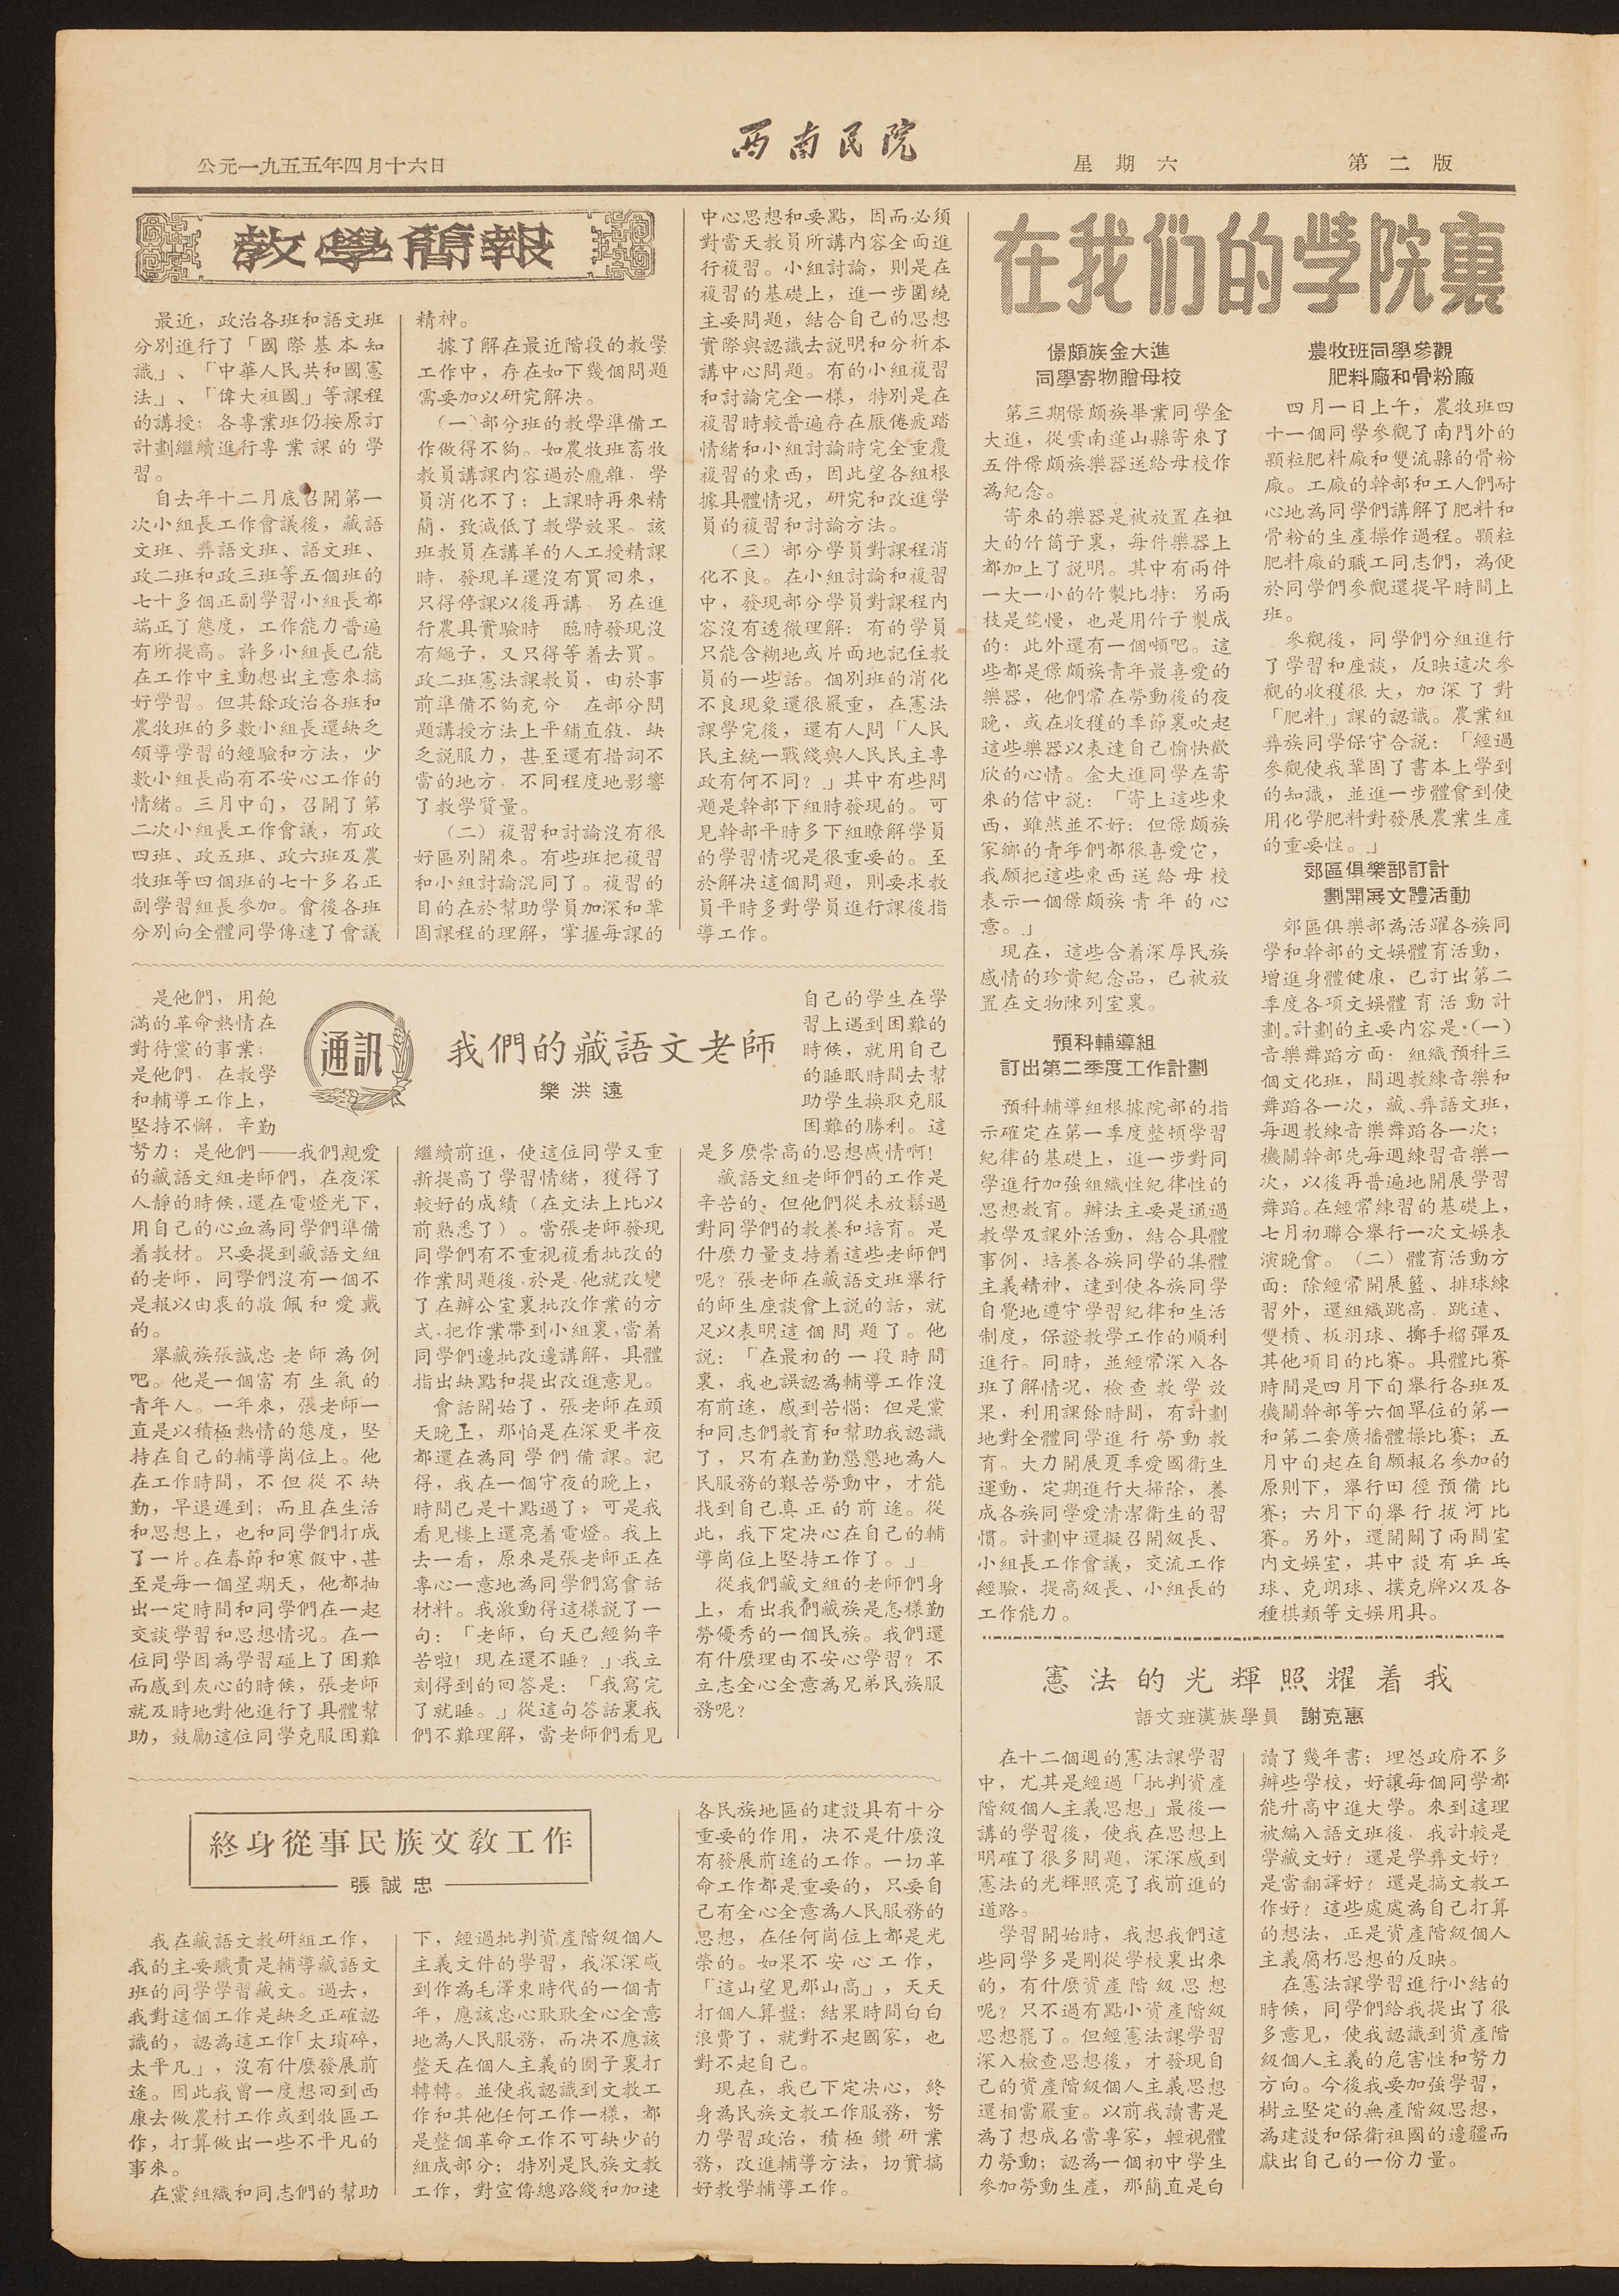公元一九五五年四月十六日 西南民院 星期六 第二版
教學簡報
最近，政治各班和語文班
分別進行了「國際基本知
識」、「中華人民共和國憲
法」、「偉大祖國」等課程
的講授：各專業班仍按原訂
計劃繼續進行專業課的學
習。
自去年十二月底召開第一
次小組長工作會議後，藏語
文班、彝語文班、語文班、
政二班和政三班等五個班的
七十多個正副學習小組長都
端正了態度，工作能力普遍
有所提高。許多小組長已能
在工作中主動想出主意來搞
好學習。但其餘政治各班和
農牧班的多數小組長還缺乏
領導學習的經驗和方法，少
數小組長尚有不安心工作的
情緒。三月中旬，召開了第
二次小組長工作會議，有政
四班、政五班、政六班及農
牧班等四個班的七十多名正
副學習組長參加。會後各班
分別向全體同學傳達了會議
精神。
據了解在最近階段的教學
工作中，存在如下幾個問題
需要加以研究解決。
（一）部分班的教學準備工作
做得不夠。如農牧班畜牧
教員講課內容過於龐雜，學
員消化不了；上課時再來精
簡，致減低了教學效果。該
班教員在講羊的人工授精課
時，發現羊還沒有買囘來，
只得停課以後再講，另在進
行農具實驗時，臨時發現沒
有繩子，又只得等着去買。
政二班憲法課教員，由於事
前準備不夠充分，在部分問
題講授方法上平鋪直敍，缺
乏說服力，甚至還有措詞不
當的地方，不同程度地影響
了教學質量。
（二）複習和討論沒有很
好區別開來。有些班把複習
和小組討論混同了。複習的
目的在於幫助學員加深和鞏
固課程的理解，掌握每課的
中心思想和要點，因而必須
對當天教員所講內容全面進
行複習。小組討論，則是在
複習的基礎上，進一步圍繞
主要問題，結合自己的思想
實際與認識去說明和分析本
講中心問題。有的小組複習
和討論完全一樣，特別是在
複習時較普遍存在厭倦疲踏
情緒和小組討論時完全重覆
複習的東西，因此望各組根
據具體情況，研究和改進學
員的複習和討論方法。
（三）部分學員對課程消
化不良。在小組討論和複習
中，發現部分學員對課程內
容沒有透徹理解；有的學員
只能含糊地或片面地記住教
員的一些話。個別班的消化
不良現象還很嚴重，在憲法
課學完後，還有人問「人民
民主統一戰綫與人民民主專
政有何不同？」其中有些問
題是幹部下組時發現的。可
見幹部平時多下組瞭解學員
的學習情況是很重要的。至
於解決這個問題，則要求教
員平時多對學員進行課後指
導工作。
通訊
我們的藏語文老師
樂 洪 遠
是他們，用飽
滿的革命熱情在
對待黨的事業；
是他們，在教學
和輔導工作上，
堅持不懈，辛勤
努力；是他們——我們親愛
的藏語文組老師們，在夜深
人精的時候，還在點燈光下，
用自己的心血為同學們準備
着教材。只要提到藏語文組
的老師，同學們沒有一個不
是報以由衷的敬佩和愛戴
的。
舉藏族張誠忠老師為例
吧。他是一個富有生氣的
青年人。一年來，張老師一
直是以積極熱情的態度，堅
持在自己的輔導崗位上。他
在工作時間，不但從不缺
勤，早退遲到；而且在生活
和思想上，也和同學們打成
了一片。在春節和寒假中，甚
至是每一個星期天，他都抽
出一定時間和同學們在一起
交談學習和思想情況。在一
位同學因為學習碰上了困難
而感到灰心的時候，張老師
就及時地對他進行了具體幫
助，鼓勵這位同學克服困難
繼續前進，使這位同學又重
新提高了學習情緒，獲得了
較好的成績（在文法上比以
前熟悉了）。當張老師發現
同學們有不重視複看批改的
作業問題後，於是，他就改變
了在辦公室裏批改作業的方
式，把作業帶到小組裏，當着
同學們邊批改邊講解，具體
指出缺點和提出改進意見。
會話開始了，張老師在頭
天晚上，那怕是在深更半夜
都還在為同學們備課。記
得，我在一個守夜的晚上，
時間已是十點過了；可是我
看見樓上還亮着電燈。我上
去一看，原來是張老師正在
專心一意地為同學們寫會話
材料。我激動得這樣說了一
句：「老師，白天已經夠辛
苦啦！現在還不睡？」我立
刻得到的回答是：「我寫完
了就睡。」從這句答話裏我
們不難理解，當老師們看見
自己的學生在學
習上遇到困難的
時候，就用自己
的睡眠時間去幫
助學生換取克服
困難的勝利。這
是多麼崇高的思想感情啊！
藏語文組老師們的工作是
辛苦的，但他們從未放鬆過
對同學們的教養和培育。是
什麼力量支持着這些老師們
呢？張老師在藏語文班舉行
的師生座談會上說的話，就
足以表明這個問題了。他
說：「在最初的一段時間
裏，我也誤認為輔導工作沒
有前途，感到苦惱；但是黨
和同志們教育和幫助我認識
了，只有在勤勤懇懇地為人
民服務的艱苦勞動中，才能
找到自己真正的前途。從
此，我下定決心在自己的輔
導崗位上堅持工作了。」
從我們藏文組的老師們身
上，看出我們藏族是怎樣勤
勞優秀的一個民族。我們還
有什麼理由不安心學習？不
立志全心全意為兄弟民族服
務呢？
終身從事民族文敎工作
張 誠 忠
我在藏語文教研組工作，
我的主要職責是輔導藏語文
班的同學學習藏文。過去，
我對這個工作是缺乏正確認
識的，認爲這工作「太瑣碎，
太平凡」，沒有什麼發展前
途。因此我曾一度想囘到西
康去做農村工作或到牧區工
作，打算做出一些不平凡的
事來。
在黨組織和同志們的幫助
下，經過批判資產階級個人
主義文件的學習，我深深感
到作為毛澤東時代的一個青
年，應該忠心耿耿全心全意
地為人民服務，而決不應該
整天在個人主義的圈子裏打
轉轉。並使我認識到文教工
作和其他任何工作一樣，都
是整個革命工作不可缺少的
組成部分；特別是民族文教
工作，對宣傳總路綫和加速
各民族地區的建設具有十分
重要的作用，決不是什麼沒
有發展前途的工作。一切革
命工作都是重要的，只要自
己有全心全意為人民服務的
思想，在任何崗位上都是光
榮的。如果不安心工作，
「這山望見那山高」，天天
打個人算盤；結果時間白白
浪費了，就對不起國家，也
對不起自己。
現在，我已下定決心，終
身為民族文教工作服務，努
力學習政治，積極鑽研業
務，改進輔導方法，切實搞
好教學輔導工作。
在我们的學院裏
景頗族金大進
同學寄物贈母校
第三期景頗族畢業同學金
大進，從雲南蓮山縣寄來了
五件景頗族樂器送給母校作
爲紀念。
寄來的樂器是被放置在粗
大的竹筒子裏，每件樂器上
都加上了說明。其中有兩件
一大一小的竹製比特；另兩
枝是笓慢，也是用竹子製成
的；此外還有一個噸吧。這
些都是景頗族青年最喜愛的
樂器，他們常在勞動後的夜
晚，或在收穫的季節裏吹起
這些樂器以表達自己愉快歡
欣的心情。金大進同學在寄
來的信中說：「寄上這些東
西，雖然並不好；但景頗族
假想敵青年們都很喜愛它，
我願把這些東西送給母校
表示一個景頗族青年的心
意。」
現在，這些含着深厚民族
感情的珍貴紀念品，已被放
置在文物陳列室裏。
預科輔導組
訂出第二季度工作計劃
預科輔導組根據院部的指
示確定在第一季度整頓學習
紀律的基礎上，進一步對同
學進行加強組織性紀律性的
思想教育。辦法主要是通過
教學及課外活動，結合具體
事例，培養各族同學的集體
主義精神，達到使各族同學
自覺地遵守學習紀律和生活
制度，保證教學工作的順利
進行。同時，並經常深入各
班了解情況，檢查教學效
果，利用課餘時間，有計劃
地對全體同學進行勞動教
育。大力開展夏季愛國衛生
運動，定期進行大掃除，養
成各族同學愛清潔衛生的習
慣。計劃中還擬召開級長、
小組長工作會議，交流工作
經驗，提高級長、小組長的
工作能力。
農牧班同學參觀
肥料廠和骨粉廠
四月一日上午，農牧班四
十一個同學參觀了南門外的
顆粒肥料廠和雙流縣的骨粉
廠。工廠的幹部和工人們耐
心地為同學們講解了肥料和
骨粉的生產操作過程。顆粒
肥料廠的職工同志們，為便
於同學們參觀還提早時間上
班。
參觀後，同學們分組進行
了學習和座談，反映這次參
觀的收穫很大，加深了對
「肥料」課的認識。農業組
彝族同學保守合說：「經過
參觀使我鞏固了書本上學到
的指示，並進一步體會到使
用化學肥料對發展農業生產
的重要性。」
郊區俱樂部訂計
劃開展文體活動
郊區俱樂部為活躍各族同
學和幹部的文娛體育活動，
增進身體健康，已訂出第二
季度各項文娛體育活動計
劃。計劃的主要內容是：（一）
音樂舞蹈方面：組織預科三
各文化班，間週教練音樂和
舞蹈各一次，藏、彝語文班，
每週教練音樂舞蹈各一次；
機關幹部先每週練習音樂一
次，以後再普遍地開展學習
舞蹈。在經常練習的基礎上，
七月初聯合舉行一次文娛表
演晚會。（二）體育活動方
面：除經常開展籃、排球練
習外，還組織跳高、跳遠、
雙槓、板羽球、擲手榴彈及
其他項目的比賽。具體比賽
時間是四月下旬舉行各班及
機關幹部等六個單位的第一
和第二套廣播體操比賽；五
月中旬起在自願報名參加的
原則下，舉行田徑預備比
賽；六月下旬舉行拔河比
賽。另外，還開闢了兩件室
內文娛室，其中設有乒乓
球、克朗球、撲克牌以及各
種棋類等文娛用具。
憲 法 的 光 輝 照 耀 着 我
語文班漢族學員 謝克惠
在十二個週的憲法課學習
中，尤其是經過「批判資產
階級個人主義思想」最後一
講的學習後，使我在思想上
明確了很多問題，深深感到
憲法的光輝照亮了我前進的
道路。
學習開始時，我想我們這
些同學多是剛從學校裏出來
的，有什麼資產階級思想
呢？只不過有點小資產階級
思想罷了。但經憲法課學習
深入檢查思想後，才發現自
己的資產階級個人主義思想
還相當嚴重。以前我讀書是
為了想成名當專家，輕視體
力勞動；認為一個初中學生
參加勞動生產，那簡直是白
讀了幾年書；埋怨政府不多
辦些學校，好讓每個同學都
能升高中進大學。來到這理
被編入語文班後，我計較是
學藏文好？還是學彝文好？
是當翻譯好？還是搞文教工
作好？這些處處為自己打算
的想法，正是資產階級個人
主義腐朽思想的反映。
在憲法課學習進行小結的
時候，同學們給我提出了很
多意見，使我認識到資產階
級個人主義的危害性和努力
方向。今後我要加強學習，
樹立堅定的無產階級思想，
為建設和保衛祖國的邊疆而
獻出自己的一分力量。
